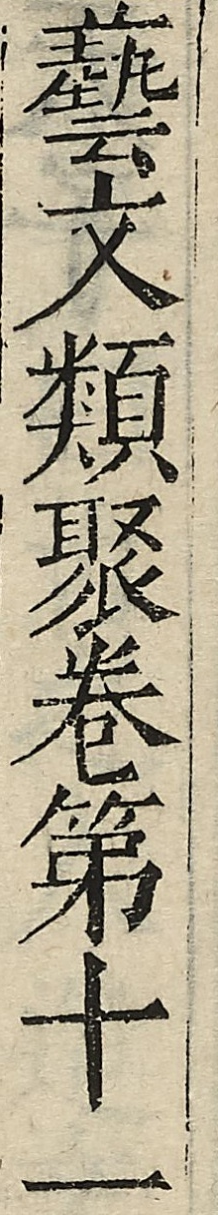藝文類聚卷第十一
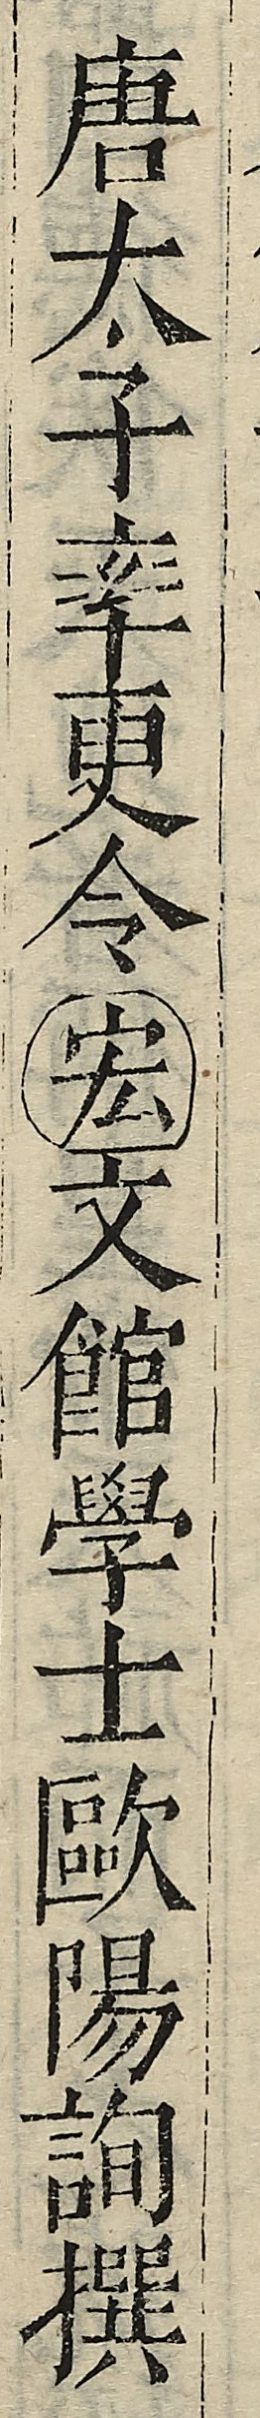唐太子率更令宏文館學士歐陽詢撰
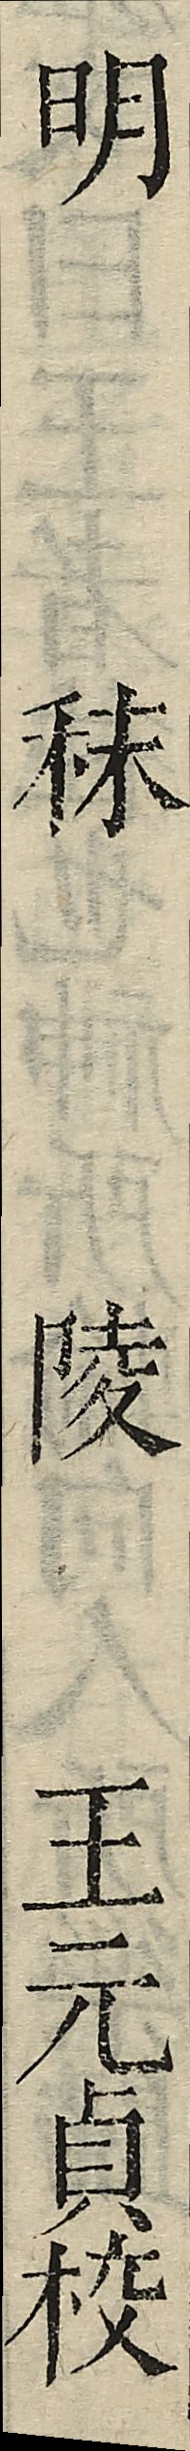明秣陵王元貞校
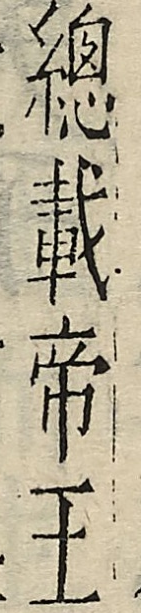總載帝王
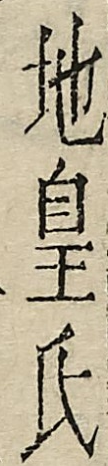地皇氏
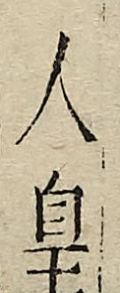人皇
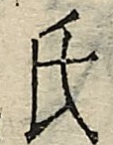氏
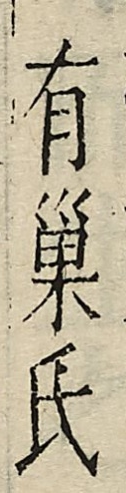有巢氏
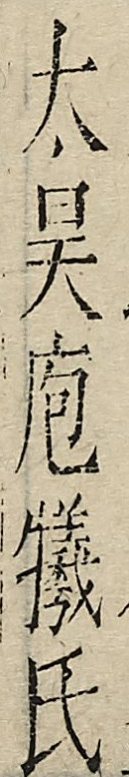太昊庖犧氏
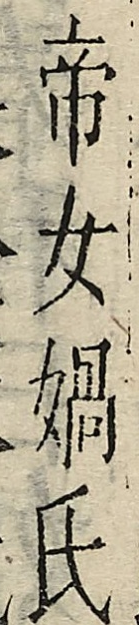帝女媧氏
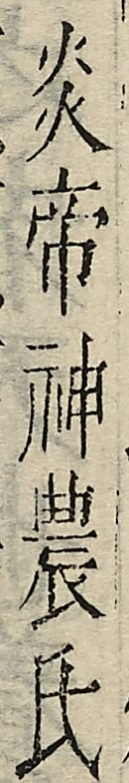炎帝神農氏
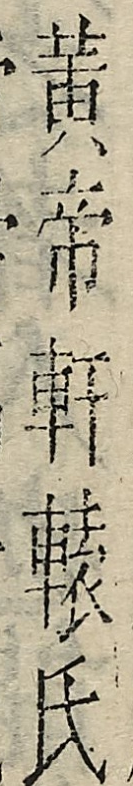黃帝軒轅氏
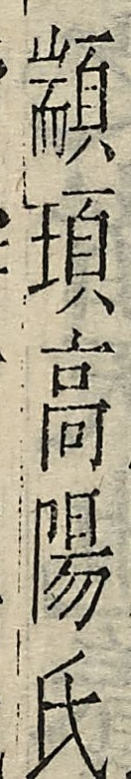顓頊高陽氏
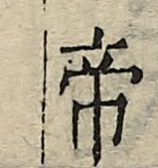帝
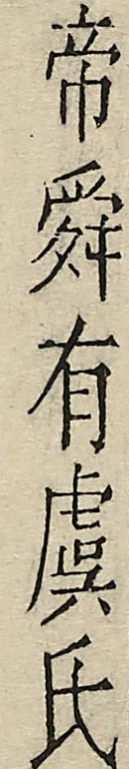帝舜有虞氏
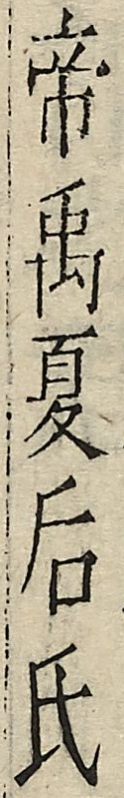帝禹夏后氏
